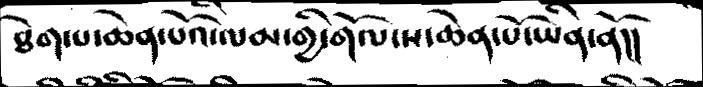ཐེག་པ་ཆེན་པོའི་ལམ་གྱི་གོལ་ས་ཆེན་པོ་ཡིན་ནོ།།
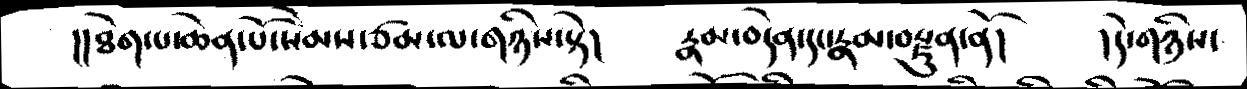།།ཐེག་པ་ཆེན་པོ་སེམས་ཙམ་ལ་གཉིས་སྟེ།   རྣམ་བདེན་དང་རྣམ་བརྫུན་ནོ།   །དེ་གཉིས་
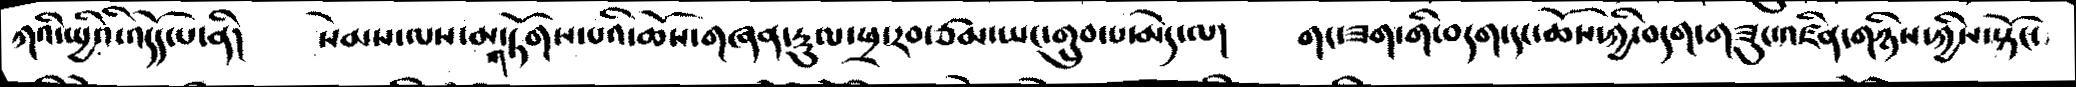ཀའི་སྤྱིའི་འདོད་པ་ནི།   སེམས་ལས་མ་གཏོགས་པའི་ཆོས་གཞན་རྡུལ་ཕྲ་རབ་ཙམ་ཡང་གྲུབ་པ་མེད་ལ།   གང་ཟག་གི་བདག་དང་ཆོས་ཀྱི་བདག་གཟུང་འཛིན་གཉིས་ཀྱིས་སྟོང་
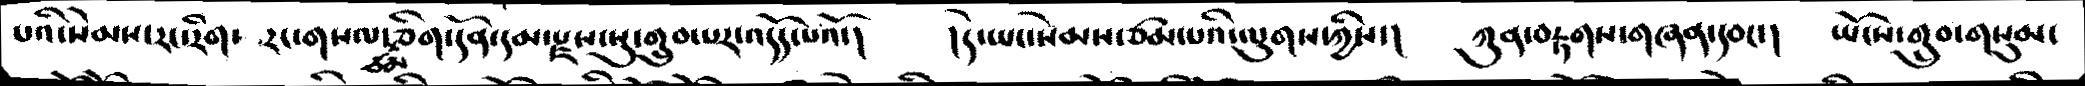པའི་སེམས་རང་རིག་རང་གསལ་ཙམ་ཅིག་དོན་དམ་རྫས་སུ་གྲུབ་པར་འདོད་པའོ་།   །དེ་ཡང་སེམས་ཙམ་པའི་ལུགས་ཀྱིས་།   ཀུན་བརྟགས་གཞན་དབང་།  ཡོངས་གྲུབ་གསུམ་
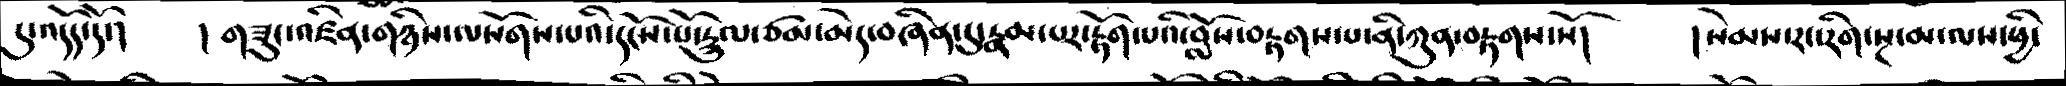དུ་འདོད་དོ་།   །གཟུང་འཛིན་གཉིས་ལསོགས་པའི་དངོས་པོ་རྡུལ་ཙམ་མེད་བཞིན་དུ་རྣམ་པར་རྟོག་པའི་བློས་བརྟགས་པ་ནི་ཀུན་བརྟགས་སོ།   །སེམས་རང་རིག་སྔ་མ་ལས་ཕྱི་
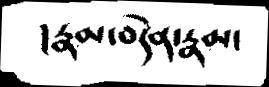།རྣམ་བདེན་རྣམ་
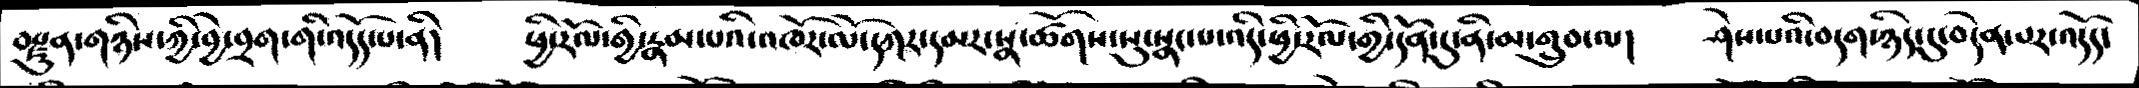བརྫུན་གཉིས་ཀྱི་བྱེ་བྲག་གི་འདོད་པ་ནི།   ཕྱི་རོལ་གྱི་རྣམ་པའི་འཁོར་ལོ་དཀར་དམར་སྣ་ཚོགས་སུ་སྣང་པ་འདི་ཕྱི་རོལ་གྱི་དོན་དུ་ནི་མ་གྲུབ་ལ།   ཤེས་པའི་བདག་ཉིད་དུ་བདེན་པར་འདོད་
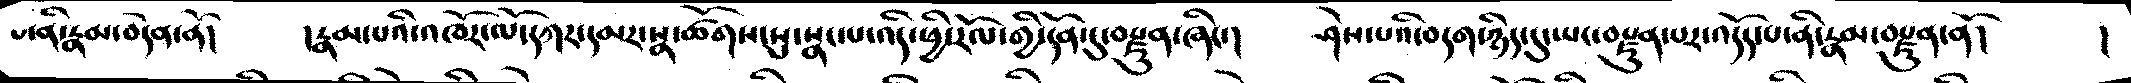པ་ནི་རྣམ་བདེན་ནོ།   །རྣམ་པའི་འཁོར་ལོ་དཀར་དམར་སྣ་ཚོགས་སུ་སྣང་པ་འདི་ཕྱི་རོལ་གྱི་དོན་དུ་བརྫུན་ཞིང་།  ཤེས་པའི་བདག་ཉིད་དུ་ཡང་བརྫུན་པར་འདོད་པ་ནི་རྣམ་བརྫུན་ནོ།   །
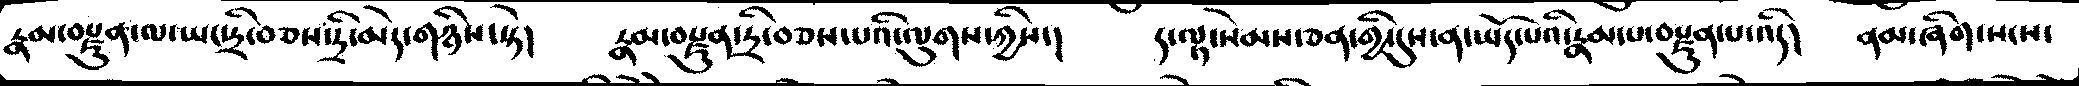རྣམ་བརྫུན་ལ་ཡང་དྲི་བཅས་དྲི་མེད་གཉིས་སྟེ།   རྣམ་བརྫུན་དྲི་བཅས་པའི་ལུགས་ཀྱིས་།   ད་ལྟ་སེམས་ཅན་གྱི་དུས་ན་ཡོད་པའི་རྣམ་པ་བརྫུན་པ་འདི།   ནམ་ཞིག་སངས་
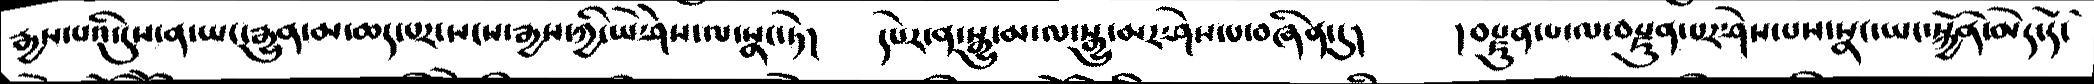རྒྱས་པའི་དུས་ན་ཡང་རྒྱུན་མ་ཆད་པར་སངས་རྒྱས་ཀྱི་ཡེ་ཤེས་ལ་སྣང་ཏེ།   དཔེར་ན་སྒྱུ་མ་ལ་སྒྱུ་མར་ཤེས་པ་བཞིན་དུ།   །བརྫུན་པ་ལ་བརྫུན་པར་ཤེས་པས་སྣང་ཡང་སྐྱོན་མེད་དོ་
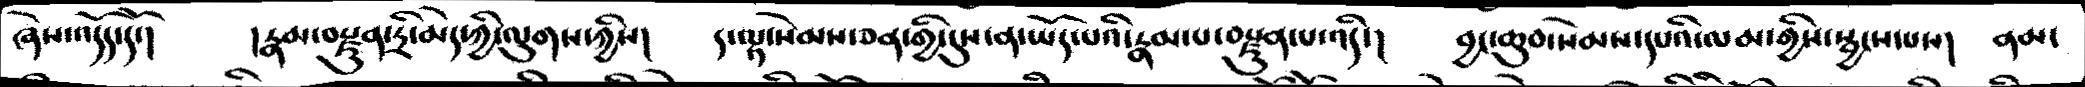ཞེས་འདོད་དོ་།   །རྣམ་བརྫུན་དྲི་མེད་ཀྱི་ལུགས་ཀྱིས།   ད་ལྟ་སེམས་ཅད་གྱི་དུས་ན་ཡོད་པའི་རྣམ་པ་བརྫུན་པ་འདི་།   བྱང་ཆུབ་སེམས་དཔའི་ལམ་གྱིས་སྦྱངས་པས།   ནམ་
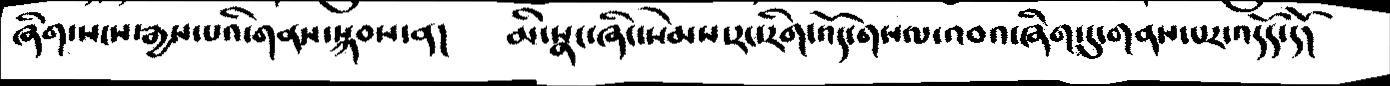ཞིག་སངས་རྒྱས་པའི་གནས་སྐབས་ན།   མི་སྣང་ཞིང་སེམས་རང་རིག་འོད་གསལ་འབའ་ཞིག་དུ་གནས་པར་འདོད་དོ།
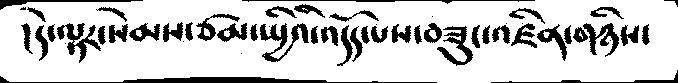།དེ་ལྟར་སེམས་ཙམ་སྤྱིའི་འདོད་པས་བཟུང་འཛིན་གཉིས་
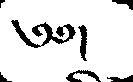༄༅།
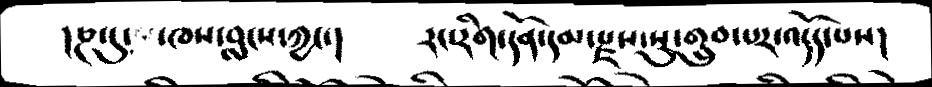།ཎ་དུ་ ་ཁས་བླངས་ཀྱང་།   རང་རིག་དོན་དམ་རྫས་སུ་གྲུབ་པར་འདོད་པས།
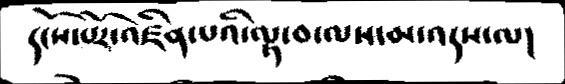དངོས་པོར་འཛིན་པའི་ལྟ་བ་ལས་མ་འདས་ལ།
